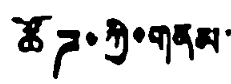ཚོཌ་ཀྱི་གནམ་
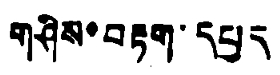གཤིས་བརྟག་དཔྱད
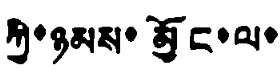ཀྱི་ཉམས་མྱོང་ལ་
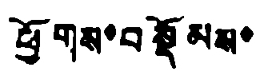ཕྱོགས་བསྡོམས་
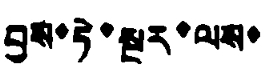བྱས་ཏེ་སྔར་ལས་
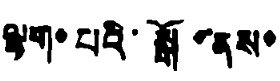ལྷག་པའི་སྒོ་ནས་
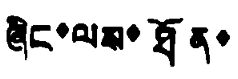ཞིང་ལས་ཐོན་
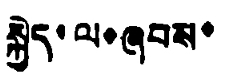སྐྱེད་ལ་ཞབས་
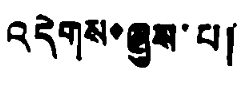འདེགས་ཞུས་པ།
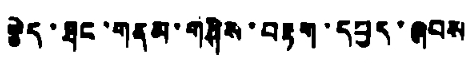རྩེད་ཐང་གནམ་གཤིས་བརྟག་དཔྱད་ཞབས
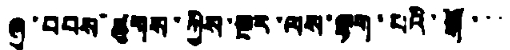ཞུ་བབས་ཚུགས་ཀྱིས་སྔར་ལས་ལྷག་པའི་སྒོ་་་
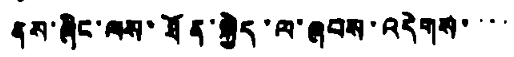ནས་ཞིང་ལས་ཐོན་སྐྱེད་ལ་ཞབས་འདེགས་་་་
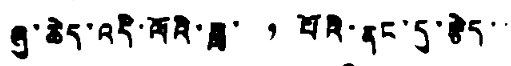ཞུ་ཆེད་འདི་ལོའི་ཟླ་ ༡ པོའི་ནང་དུ་རྩེད་་
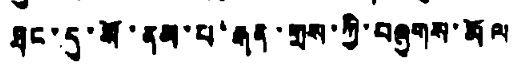ཐང་དུ་སོ་ནམ་པ་རྒན་གྲས་ཀྱི་བཞུགས་མོལ
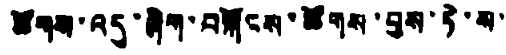ཚོགས་འདུ་ཞིག་བསྐོངས་ཚོགས་བྱས་ཏེ་ས་
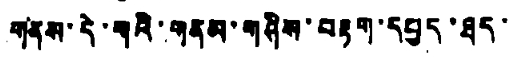གནས་དེ་གའི་གནམ་གཤིས་བརྟག་དཔྱད་ཐད་
